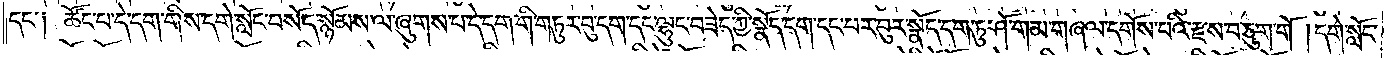དང་༑ ཚོང་པ་དེ་དག་གིས་དགེ་སློང་བསོད་སྙོམས་ལ་ཞུགས་པ་དེ་དག་གི་གཏུར་བུ་དག་དང་ལྷུང་བཟེད་ཀྱི་སྣོད་དག་དང་པར་བུར་སྣོད་དག་ཏུ་ཤོ་གམ་གཞལ་དགོས་པའི་རྫས་བཅུག་གོ །དགེ་སློང་
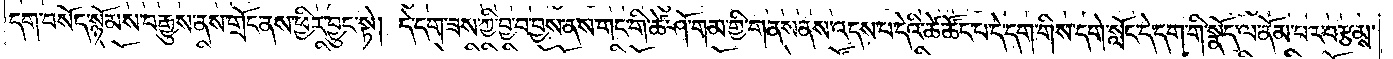དག་བསོད་སྙོམས་བརྒྱུས་ནས་གྲོང་ནས་ཕྱིར་བྱུང་སྟེ། དེ་དག་ཟས་ཀྱི་བྱ་བ་བྱས་ནས་གང་གི་ཚེ་ཤོ་གམ་གྱི་གནས་ནས་འདས་པ་དེའི་ཚེ་ཚོང་པ་དེ་དག་གིས་དགེ་སློང་དེ་དག་གི་སྣོད་ལ་ནོམ་པར་བརྩམས་
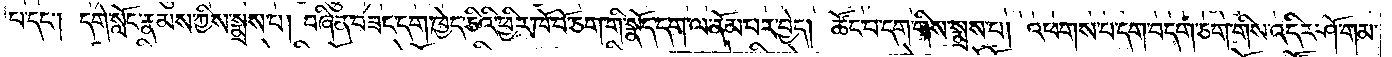པ་དང༌། དགེ་སློང་རྣམས་ཀྱིས་སྨྲས་པ། བཞིན་བཟང་དག་ཁྱེད་ཅིའི་ཕྱིར་ཁོ་བོ་ཅག་གི་སྣོད་དག་ལ་ནོམ་པར་བྱེད། ཚོང་པ་དག་གིས་སྨྲས་པ། འཕགས་པ་དག་བདག་ཅག་གིས་འདིར་ཤོ་གམ་
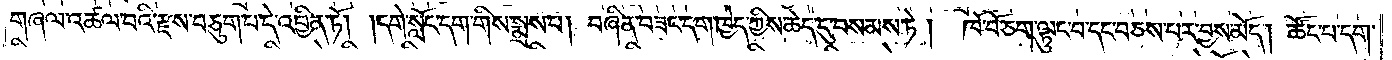གཞལ་འཚལ་བའི་རྫས་བཅུག་པ་དེ་འབྱིན་ཏོ། །དགེ་སློང་དག་གིས་སྨྲས་པ། བཞིན་བཟང་དག་ཁྱེད་ཀྱིས་ཆེད་དུ་བསམས་ཏེ།   ཁོ་བོ་ཅག་ལྟུང་བ་དང་བཅས་པར་བྱས་མོད། ཚོང་པ་དག་
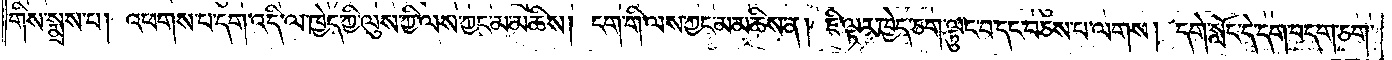གིས་སྨྲས་པ། འཕགས་པ་དག་འདི་ལ་ཁྱེད་ཀྱི་ལུས་ཀྱིས་ལས་ཀྱང་མ་མཆིས། ངག་གི་ལས་ཀྱང་མ་མཆིས་ན། ཇི་ལྟར་ཁྱེད་ཅག་ལྟུང་བ་དང་བཅས་པ་ལགས། དགེ་སློང་དེ་དག་བདག་ཅག་
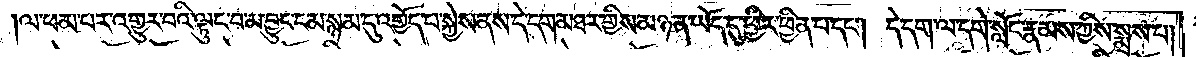ལ་ཕམ་པར་འགྱུར་བའི་ལྟུང་བ་མ་བྱུང་ངམ་སྙམ་དུ་འགྱོད་པ་སྐྱེས་ནས་དེ་དག་མཐར་གྱིས་མཉན་ཡོད་དུ་ཕྱིར་ཕྱིན་པ་དང༌། དེ་དག་ལ་དགེ་སློང་རྣམས་ཀྱིས་སྨྲས་པ།
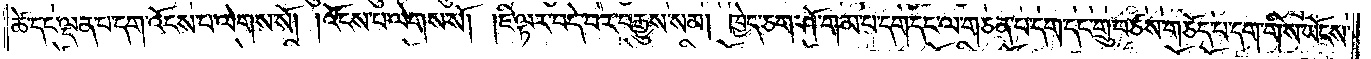ཚེ་དང་ལྡན་པ་དག་འོངས་པ་ལེགས་སོ། །འོངས་པ་ལེགས་སོ། །ཇི་ལྟར་བདེ་བར་བརྒྱུས་སམ། ཁྱེད་ཅག་ཤོ་གམ་པ་དག་དང་ལ་གཅན་པ་དག་དང་གྲུ་བཙས་གཅོད་པ་དག་གིས་ཡོངས་
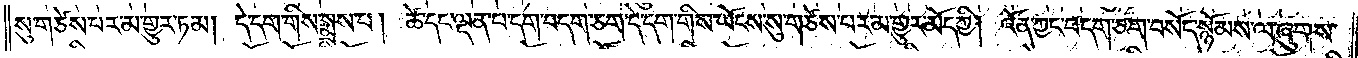སུ་གཙེས་པར་མ་གྱུར་ཏམ། དེ་དག་གིས་སྨྲས་པ། ཚེ་དང་ལྡན་པ་དག་བདག་ཅག་དེ་དག་གིས་ཡོངས་སུ་གཙེས་པར་མ་གྱུར་མོད་ཀྱི། འོན་ཀྱང་བདག་ཅག་བསོད་སྙོམས་ལ་ཞུགས་
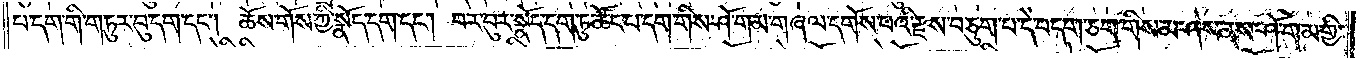པ་དག་གི་གཏུར་བུ་དག་དང༌། ཆོས་གོས་ཀྱི་སྣོད་དག་དང༌། བར་བུར་སྣོད་དག་ཏུ་ཚོང་པ་དག་གིས་ཤོ་གམ་གཞལ་དགོས་པའི་རྫས་བཅུག་པ་དེ་བདག་ཅག་གིས་མ་ཤེས་ནས་ཤོ་གམ་གྱི་
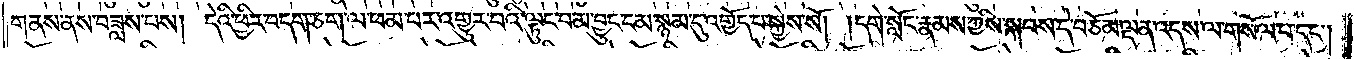གནས་ནས་བཟླས་པས། དེའི་ཕྱིར་བདག་ཅག་ལ་ཕམ་པར་འགྱུར་བའི་ལྟུང་བ་མ་བྱུང་ངམ་སྙམ་དུ་འགྱོད་པ་སྐྱེས་སོ། །དགེ་སློང་རྣམས་ཀྱིས་སྐབས་དེ་བཅོམ་ལྡན་འདས་ལ་གསོལ་པ་དང༌།
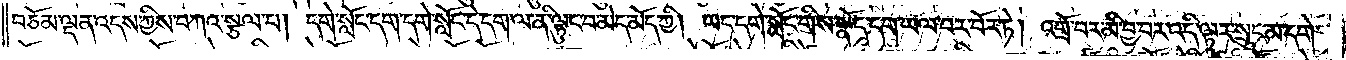བཅོམ་ལྡན་འདས་ཀྱིས་བཀའ་སྩལ་པ། དགེ་སློང་དག་དགེ་སློང་དེ་དག་ལ་ནི་ལྟུང་བ་མེད་མོད་ཀྱི། ཡང་དགེ་སློང་གིས་སྣོད་དག་ཡལ་བར་བོར་ཏེ། འགྲོ་བར་མི་བྱ་བར་འདི་ལྟར་སྲུང་མ་དགེ་
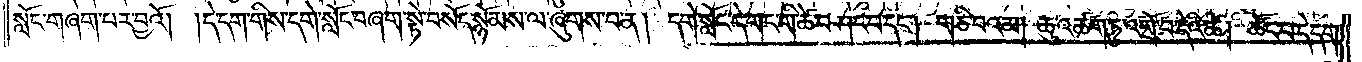སློང་གཞག་པར་བྱའོ། །དེ་དག་གིས་དགེ་སློང་བཞག་སྟེ་བསོད་སྙོམས་ལ་ཞུགས་པ་ན། དགེ་སློང་དེ་གང་གི་ཚེ་བཤང་བ་དང༌། གཅི་བའམ། ཆུ་འཚག་ཏུ་འགྲོ་བ་དེའི་ཚེ། ཚོང་པ་དེ་དག་
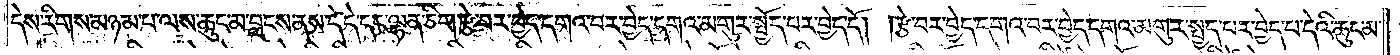དེས་རིགས་མཉམ་པ་ལས་ཆུང་མ་བླངས་ནས་དེ་དེ་དང་ལྷན་ཅིག་རྩེ་བར་བྱེད་དགའ་བར་བྱེད་དགའ་མགུར་སྤྱོད་པར་བྱེད་དོ། །རྩེ་བར་བྱེད་དགའ་བར་བྱེད་དགའ་མགུར་སྤྱད་པར་བྱེད་པ་དེའི་ཆུང་མ་
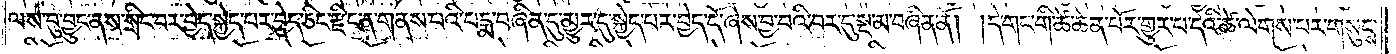ལས་བུ་བྱུང་ནས་སྲིང་བར་བྱེད་སྐྱེད་པར་བྱེད་ཅིང་རྫིང་ན་གནས་པའི་པདྨ་བཞིན་དུ་མྱུར་དུ་སྐྱེད་པར་བྱེད་དོ་ཞེས་བྱ་བའི་བར་དུ་སྔ་མ་བཞིན་ནོ། །དེ་གང་གི་ཚེ་ཆེན་པོར་གྱུར་པ་དེའི་ཚེ་ལེགས་པར་གསུངས་
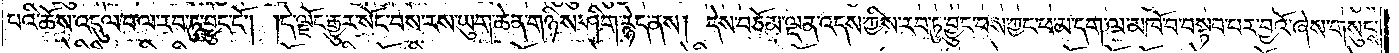པའི་ཆོས་འདུལ་བ་ལ་རབ་ཏུ་བྱུང་ངོ༌། །དེ་ལྗོང་རྒྱུར་སོང་བས་རས་ཡུག་ཆེན་གཉིས་ཤིག་རྙེད་ནས། དེས་བཅོམ་ལྡན་འདས་ཀྱིས་རབ་ཏུ་བྱུང་བས་ཀྱང་ཕ་མ་དག་ལ་མཁོ་བ་བསྟབ་པར་བྱའོ་ཞེས་གསུངས་
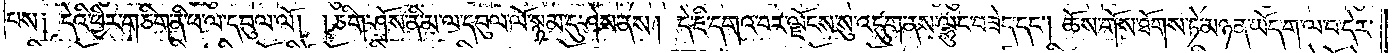པས༑ དེའི་ཕྱིར་གཅིག་ནི་ཕ་ལ་དབུལ་ལོ། །ཅིག་ཤོས་ནི་མ་ལ་དབུལ་ལོ་སྙམ་དུ་ཤེས་ནས། དེ་ཇི་དགའ་བར་ལྗོངས་སུ་འདུག་ནས་ལྷུང་བཟེད་དང༌། ཆོས་གོས་ཐོགས་ཏེ་མཉན་ཡོད་ག་ལ་བ་དེར་
